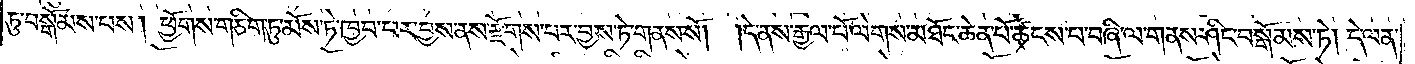ཏུ་བསྒོམས་པས། ཕྱོགས་གཅིག་ཏུ་མོས་ཏེ་ཁྱབ་པར་བྱས་ནས་རྫོགས་པར་བྱས་ཏེ་གནས་སོ། །དེ་ནས་རྒྱལ་པོ་ལེགས་མཐོང་ཆེན་པོ་ཚངས་པ་བཞི་ལ་གནས་ཤིང་བསྒོམས་ཏེ། དེ་ལན་
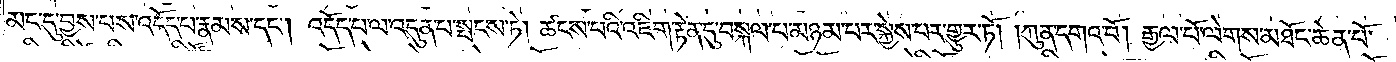མང་དུ་བྱས་པས་འདོད་པ་རྣམས་དང༌། འདོད་པ་ལ་འདུན་པ་སྤངས་ཏེ། ཚངས་པའི་འཇིག་རྟེན་དུ་བསྐལ་པ་མཉམ་པར་སྐྱེས་པར་གྱུར་ཏོ། །ཀུན་དགའ་བོ། རྒྱལ་པོ་ལེགས་མཐོང་ཆེན་པོ་
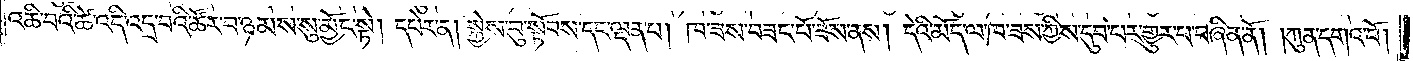འཆི་བའི་ཚེ་འདི་འདྲ་བའི་ཚོར་བ་ཉམས་སུ་མྱོང་སྟེ། དཔེར་ན། སྐྱེས་བུ་སྟོབས་དང་ལྡན་པ། ཁ་ཟས་བཟང་པོ་ཟོས་ནས། དེའི་མོད་ལ་ཁ་ཟས་ཀྱིས་དུབ་པར་གྱུར་པ་བཞིན་ནོ། །ཀུན་དགའ་བོ།
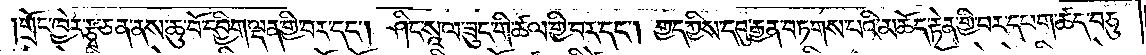གྲོང་ཁྱེར་རྩྭ་ཅན་ནས་ཆུ་བོ་དབྱིག་ལྡན་གྱི་བར་དང༌། ཤིང་སཱ་ལ་ཟུང་གི་ཚལ་གྱི་བར་དང༌། གྱད་ཀྱིས་དབུ་རྒྱན་བཏགས་པའི་མཆོད་རྟེན་གྱི་བར་དཔག་ཚད་བཅུ་
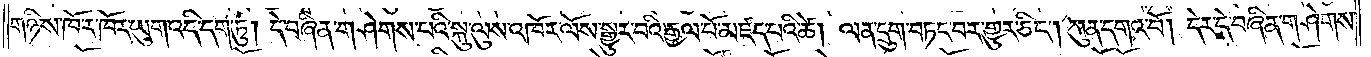གཉིས་ཁོ་ར་ཁོར་ཡུག་འདི་དག་ཏུ། དེ་བཞིན་གཤེགས་པའི་སྐུ་ལུས་འཁོར་ལོས་སྒྱུར་བའི་རྒྱལ་པོ་མཛད་པའི་ཚེ། ལན་དྲུག་བཏང་བར་གྱུར་ཅིང༌། ཀུན་དགའ་བོ། དེར་དེ་བཞིན་གཤེགས་
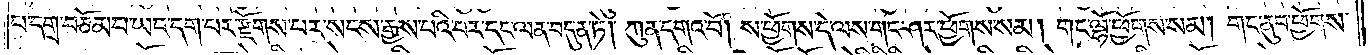པ་དགྲ་བཅོམ་པ་ཡང་དག་པར་རྫོགས་པར་སངས་རྒྱས་པའི་བར་དང་ལན་བདུན་ཏེ། ཀུན་དགའ་བོ། ས་ཕྱོགས་དེ་ལས་གང་ཤར་ཕྱོགས་སམ། གང་ལྷོ་ཕྱོགས་སམ། གང་ནུབ་ཕྱོགས་
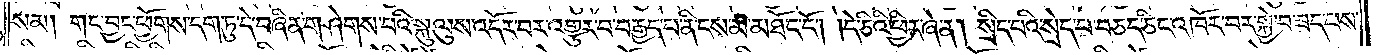སམ། གང་བྱང་ཕྱོགས་དག་ཏུ་དེ་བཞིན་གཤེགས་པའི་སྐུ་ལུས་འདོར་བར་འགྱུར་བ་བརྒྱད་པ་ནི་ངས་མ་མཐོང་ངོ༌། །དེ་ཅིའི་ཕྱིར་ཞེ་ན། སྲིད་པའི་སྲེད་པ་བཅད་ཅིང་འཁོར་བར་སྐྱེ་བ་ཟད་པས་
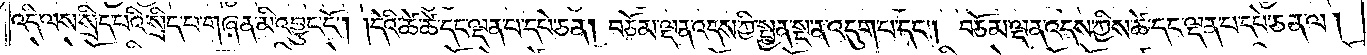འདི་ལས་སྲིད་པའི་སྲིད་པ་གཞན་མི་འབྱུང་ངོ༌། །དེའི་ཚེ་ཚེ་དང་ལྡན་པ་དཔེ་ཅན། བཅོམ་ལྡན་འདས་ཀྱི་སྤྱན་སྔ་ན་འདུག་པ་དང༌། བཅོམ་ལྡན་འདས་ཀྱིས་ཚེ་དང་ལྡན་པ་དཔེ་ཅན་ལ།
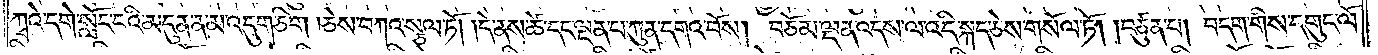ཀྭའེ་དགེ་སློང་ངའི་མདུན་ན་མ་འདུག་ཅིག །ཅེས་བཀའ་སྩལ་ཏོ། །དེ་ནས་ཚེ་དང་ལྡན་པ་ཀུན་དགའ་བོས། བཅོམ་ལྡན་འདས་ལ་འདི་སྐད་ཅེས་གསོལ་ཏོ། །བཙུན་པ། བདག་གིས་དགུང་ལོ་
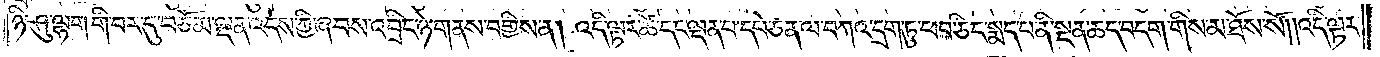ཉི་ཤུ་ལྷག་གི་བར་དུ་བཅོམ་ལྡན་འདས་ཀྱི་ཞབས་འབྲིང་ཉེ་གནས་བགྱིས་ན། འདི་ལྟར་ཚེ་དང་ལྡན་པ་དཔེ་ཅན་ལ་བཀའ་དྲག་ཏུ་ཕབ་ཅིང་སྨད་པ་ནི་སྔན་ཆད་བདག་གིས་མ་ཐོས་སོ། །འདི་ལྟར་
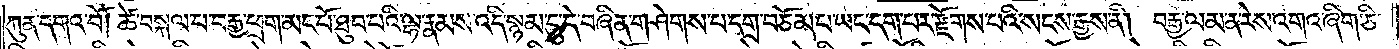ཀུན་དགའ་བོ། ཚེ་བསྐལ་པ་བརྒྱ་ཕྲག་མང་པོ་ཐུབ་པའི་ལྷ་རྣམས་འདི་སྙམ་དུ་དེ་བཞིན་གཤེགས་པ་དགྲ་བཅོམ་པ་ཡང་དག་པར་རྫོགས་པའི་སངས་རྒྱས་ནི། བརྒྱ་ལམ་ན་རེས་འགའ་ཞིག་ཅི་
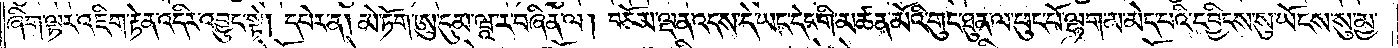ཞིག་ལྟར་འཇིག་རྟེན་འདིར་འབྱུང་སྟེ། དཔེར་ན། མེ་ཏོག་ཨུ་དུམ་ཝཱ་ར་བཞིན་ལ། བཅོམ་ལྡན་འདས་དེ་ཡང་དེང་གི་མཚན་མོའི་གུང་ཐུན་ལ་ཕུང་པོ་ལྷག་མ་མེད་པའི་དབྱིངས་སུ་ཡོངས་སུ་མྱ་
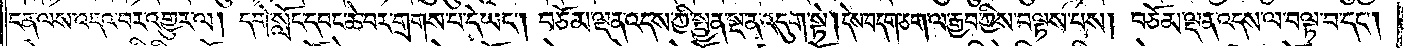ངན་ལས་འདའ་བར་འགྱུར་ལ། དགེ་སློང་དབང་ཆེ་བར་གྲགས་པ་དེ་ཡང༌། བཅོམ་ལྡན་འདས་ཀྱི་སྤྱན་སྔ་ན་འདུག་སྟེ། དེས་བདག་ཅག་ལ་རྒྱབ་ཀྱིས་བལྟས་པས། བཅོམ་ལྡན་འདས་ལ་བལྟ་བ་དང༌།
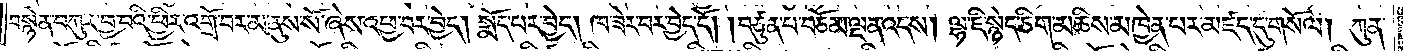བསྙེན་བཀུར་བྱ་བའི་ཕྱིར་འགྲོ་བར་མ་ནུས་སོ་ཞེས་འཕྱ་བར་བྱེད། སྨོད་པར་བྱེད། ཁ་ཟེར་བར་བྱེད་དོ། །བཙུན་པ་བཅོམ་ལྡན་འདས། ལྷ་ཇི་སྙེད་ཅིག་མཆིས་མཁྱེན་པར་མཛད་དུ་གསོལ། ཀུན་
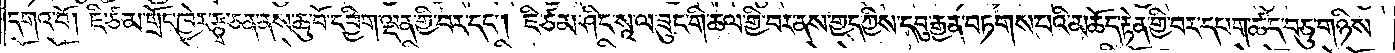དགའ་བོ། ཇི་ཙམ་གྲོང་ཁྱེར་རྩྭ་ཅན་ནས་ཆུ་བོ་དབྱིག་ལྡན་གྱི་བར་དང༌། ཇི་ཙམ་ཤིང་སཱ་ལ་ཟུང་གི་ཆལ་གྱི་བར་ནས་གྱད་ཀྱིས་དབུ་རྒྱན་བཏགས་པའི་མཆོད་རྟེན་གྱི་བར་དཔག་ཚད་བཅུ་གཉིས་
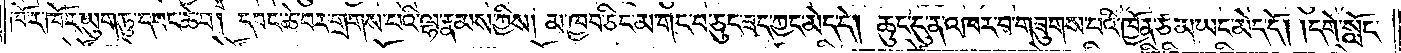ཁོ་ར་ཁོར་ཡུག་ཏུ་དབང་ཆེ་བ། དབང་ཆེ་བར་གྲགས་པའི་ལྷ་རྣམས་ཀྱིས། མ་ཁྱབ་ཅིང་མ་གང་བ་ཅུང་ཟད་ཀྱང་མེད་དེ། ཆུང་ངུ་ན་འཁར་བ་གཟུགས་པའི་ཁྱོན་ཙམ་ཡང་མེད་དོ། །དགེ་སློང་
